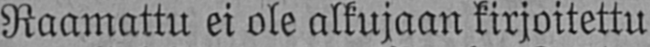Raamattu ei ole alkujaan kirjoitettu
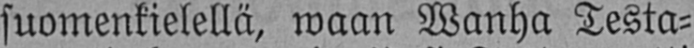suomenkielellä, waan Wanha Testa-
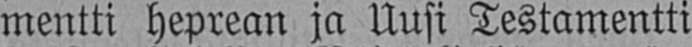mentti heprean ja Uusi Testamentti
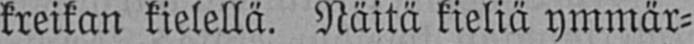kreikan kielellä. Näitä kieliä ymmär-
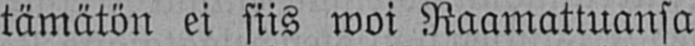tämätön ei siis woi Raamattuansa
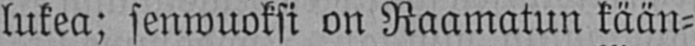lukea; senwuoksi on Raamatun kään-
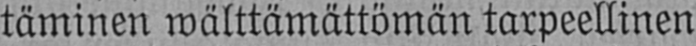täminen wälttämättömän tarpeellinen
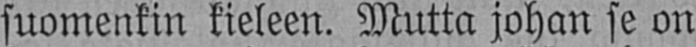suomenkin kieleen. Mutta johan se on
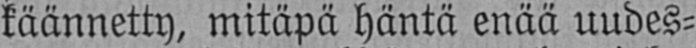käännetty, mitäpä häntä enää uudes-
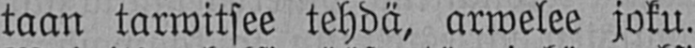taan tarwitsee tehdä, arwelee joku.
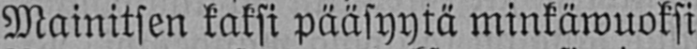Mainitsen kaksi pääsyytä minkäwuoksi
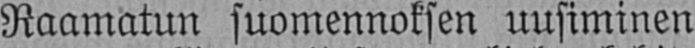Raamatun suomennoksen uusiminen
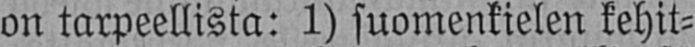on tarpeellista: 1) suomenkielen kehit-
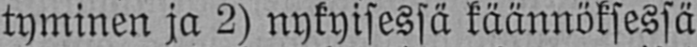tyminen ja 2) nykyisessä käännöksessä
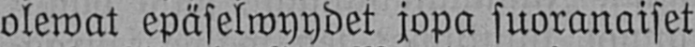olewat epäselwyydet jopa suoranaiset
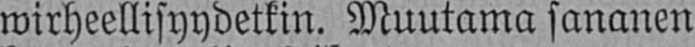wirheellisyydetkin. Muutama sananen
